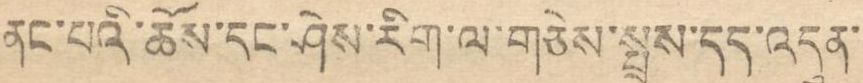ནང་པའི་ཆོས་དང་ཤེས་རིག་ལ་གཅེས་སྤྲས་དད་འདུན་
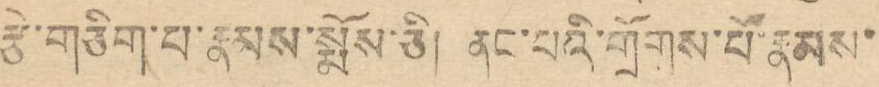རྩེ་གཅིག་པ་རྣམས་སྨོས་ཅི། ནང་པའི་གྲོགས་པོ་རྣམས་
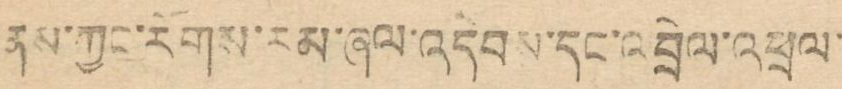ནས་ཀྱང་རོགས་རམ་ཞལ་འདེབས་དང་འབྲེལ་འཕྲལ་
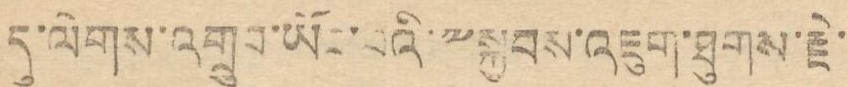དུ་ལེགས་འགྲུབ་ཡོང་བའི་༸སྐྱབས་འཇུག་ཐུགས་རྗེ་
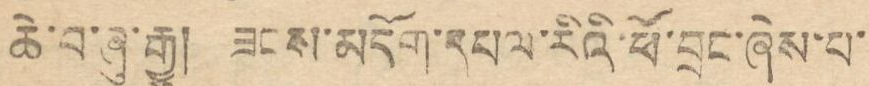ཆེ་བ་ཞུ་རྒྱུ། ཟངས་མདོག་དཔལ་རིའི་ཕོ་བྲང་ཞེས་པ་
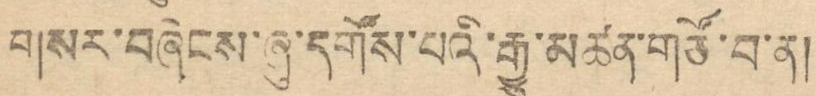གསར་བཞེངས་ཞུ་དགོས་པའི་རྒྱུ་མཚན་གཙོ་བ་ན།
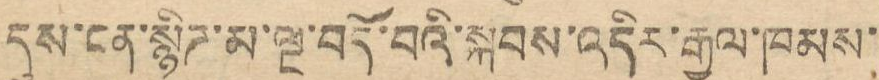དུས་ངན་སྙིཊ་མ་ལྔ་བོད་པའི་སྐབས་འདིར་རྒྱལ་ཁམས་
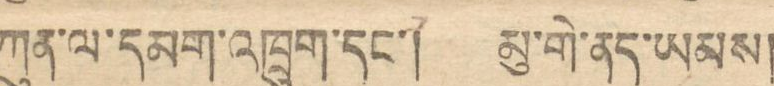ཀུན་ལ་དམག་འཁྲུག་དང་། མུ་གེ་ནད་ཡམས།
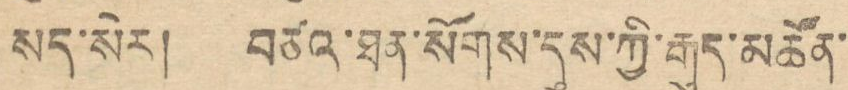སད་སེར། བཙའ་ཐན་སོགས་དུས་ཀྱི་རྒུད་མཚོན་
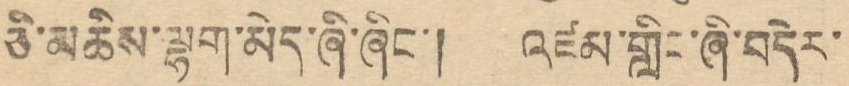ཅི་མཆིས་ལྷག་མེད་ཞི་ཞིང་། འཛམ་གླིང་ཞི་བདེར་
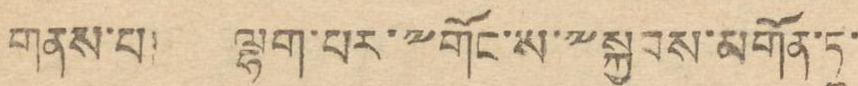གནས་པ། ལྷག་པར་༸གོང་ས་༸སྐྱབས་མགོན་ཏཱ་
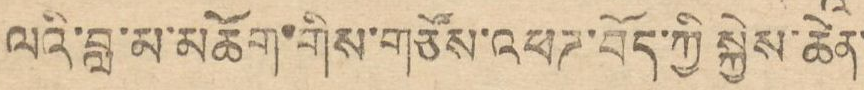ལའི་བླ་མ་མཆོག་གིས་གཙོས་འཕཊ་བོད་ཀྱི སྐྱེས་ཆེན་
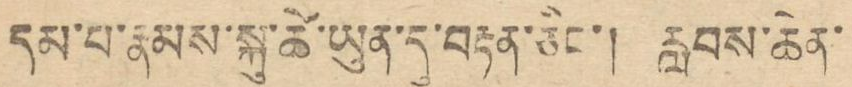དམ་པ་རྣམས་སྐུ་ཚེ་ཡུལ་དུ་བརྟན་ཅིང་། རླབས་ཆེན་
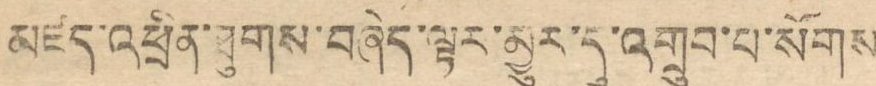མཛད་འཕྲིན་ཐུགས་བཞེད་ལྟར་མྱུར་དུ་འགྲུབ་པ་སོགས
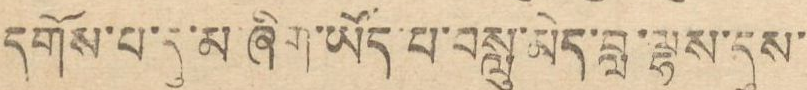དགོས་པ་དུ་མ་ཞིག་ཡོད་པ་བསླུ་མེད་བླ་ལྷས་དུས་
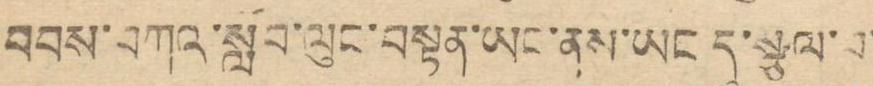བབས་བཀའ་སློབ་ལུང་བསྟན་ཡང་ནས་ཡང དུ་སྩལ་བ་
